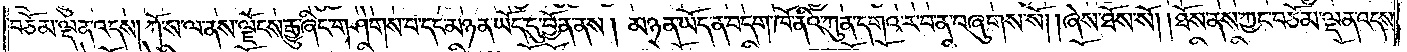བཅོམ་ལྡན་འདས། ཀོ་ས་ལ་ནས་ལྗོངས་རྒྱུ་ཞིང་གཤེགས་པ་དང་མཉན་ཡོད་དུ་བྱོན་ནས། མཉན་ཡོད་ན་བདག་ཁོ་ནའི་ཀུན་དགའ་ར་བ་ན་བཞུགས་སོ། །ཞེས་ཐོས་སོ། །ཐོས་ནས་ཀྱང་བཅོམ་ལྡན་འདས་
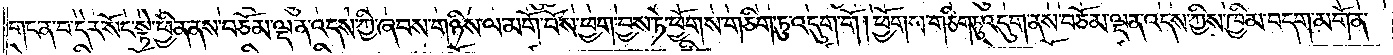གང་ན་བ་དེར་སོང་སྟེ་ཕྱིན་ནས་བཅོམ་ལྡན་འདས་ཀྱི་ཞབས་གཉིས་ལ་མགོ་བོས་ཕྱག་བྱས་ཏེ་ཕྱོགས་གཅིག་ཏུ་འདུག་གོ །ཕྱོགས་གཅིག་ཏུ་འདུག་ནས་བཅོམ་ལྡན་འདས་ཀྱིས་ཁྱིམ་བདག་མགོན་
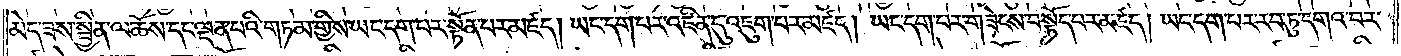མེད་ཟས་སྦྱིན་ལ་ཆོས་དང་ལྡན་པའི་གཏམ་གྱིས་ཡང་དག་པར་སྟོན་པར་མཛད། ཡང་དག་པར་འཛིན་དུ་འཇུག་པར་མཛད། ཡང་དག་པར་གཟེངས་བསྟོད་པར་མཛད། ཡང་དག་པར་རབ་ཏུ་དགའ་བར་
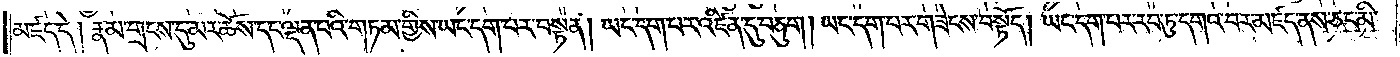མཛད་དེ། རྣམ་གྲངས་དུ་མར་ཆོས་དང་ལྡན་པའི་གཏམ་གྱིས་ཡང་དག་པར་བསྟན། ཡང་དག་པར་འཛིན་དུ་བཅུག །ཡང་དག་པར་གཟེངས་བསྟོད། ཡང་དག་པར་རབ་ཏུ་དགའ་བར་མཛད་ནས་ཅང་མི་
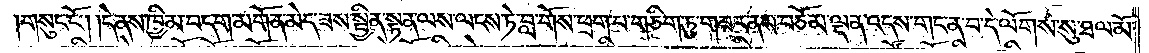གསུང་ངོ༌། །དེ་ནས་ཁྱིམ་བདག་མགོན་མེད་ཟས་སྦྱིན་སྟན་ལས་ལངས་ཏེ་བླ་གོས་ཕྲག་པ་གཅིག་ཏུ་གཟར་ནས་བཅོམ་ལྡན་འདས་གང་ན་བ་དེ་ལོགས་སུ་ཐལ་མོ་
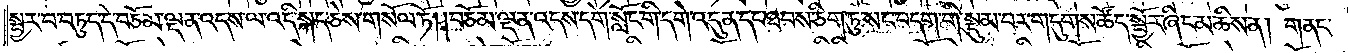སྦྱར་བ་བཏུད་དེ་བཅོམ་ལྡན་འདས་ལ་འདི་སྐད་ཅེས་གསོལ་ཏོ། །བཅོམ་ལྡན་འདས་དགེ་སློང་གི་དགེ་འདུན་དང་ཐབས་ཅིག་ཏུ་སང་བདག་གི་སྡུམ་པར་གདུགས་ཚོད་སྦྱོར་ཞིང་མཆིས་ན། གནང་
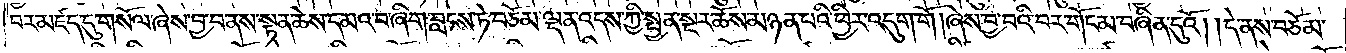བར་མཛད་དུ་གསོལ་ཞེས་བྱ་བ་ནས་སྟན་ཆེས་དམའ་བ་ཞིག་བླངས་ཏེ་བཅོམ་ལྡན་འདས་ཀྱི་སྤྱན་སྔར་ཆོས་མཉན་པའི་ཕྱིར་འདུག་གོ །ཞེས་བྱ་བའི་བར་གོང་མ་བཞིན་དུའོ། །དེ་ནས་བཅོམ་
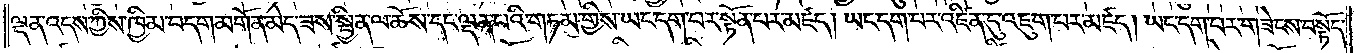ལྡན་འདས་ཀྱིས་ཁྱིམ་བདག་མགོན་མེད་ཟས་སྦྱིན་ལ་ཆོས་དང་ལྡན་པའི་གཏམ་གྱིས་ཡང་དག་པར་སྟོན་པར་མཛད། ཡང་དག་པར་འཛིན་དུ་འཇུག་པར་མཛད། ཡང་དག་པར་གཟེངས་བསྟོད་
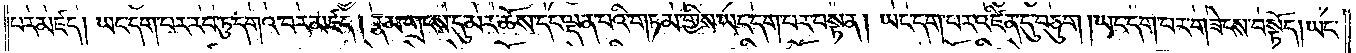པར་མཛད། ཡང་དག་པར་རབ་ཏུ་དགའ་བར་མཛད། རྣམ་གྲངས་དུ་མར་ཆོས་དང་ལྡན་པའི་གཏམ་གྱིས་ཡང་དག་པར་བསྟན། ཡང་དག་པར་འཛིན་དུ་བཅུག །ཡང་དག་པར་གཟེངས་བསྟོད། ཡང་
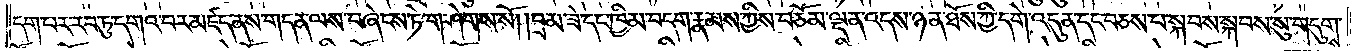དག་པར་རབ་ཏུ་དགའ་བར་མཛད་ནས་གདན་ལས་བཞེངས་ཏེ་གཤེགས་སོ། །བྲམ་ཟེ་དང་ཁྱིམ་བདག་རྣམས་ཀྱིས་བཅོམ་ལྡན་འདས་ཉན་ཐོས་ཀྱི་དགེ་འདུན་དང་བཅས་པ་སྐབས་སྐབས་སུ་གདུགས་
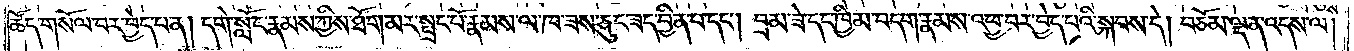ཚོད་གསོལ་བར་བྱེད་པ་ན། དགེ་སློང་རྣམས་ཀྱིས་ཐོག་མར་སྤྲང་པོ་རྣམས་ལ་ཁ་ཟས་ཅུང་ཟད་བྱིན་པ་དང༌། བྲམ་ཟེ་དང་ཁྱིམ་བདག་རྣམས་འཕྱར་བར་བྱེད་པའི་སྐབས་དེ། བཅོམ་ལྡན་འདས་ལ།
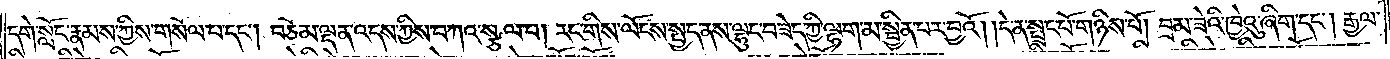དགེ་སློང་རྣམས་ཀྱིས་གསོལ་པ་དང༌། བཅོམ་ལྡན་འདས་ཀྱིས་བཀའ་སྩལ་པ། རང་གིས་ལོངས་སྤྱད་ནས་ལྷུང་བཟེད་ཀྱི་ལྷག་མ་སྦྱིན་པར་བྱའོ། །དེ་ན་སྤྲང་པོ་གཉིས་པོ། བྲམ་ཟེའི་ཁྱེའུ་ཞིག་དང༌། རྒྱལ་
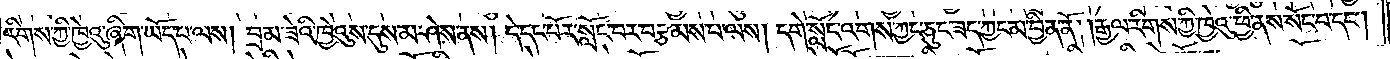རིགས་ཀྱི་ཁྱེའུ་ཞིག་ཡོད་པ་ལས། བྲམ་ཟེའི་ཁྱེའུས་དུས་མ་ཤེས་ནས། དེ་དང་པོར་སློང་བར་བརྩམས་པ་ལས། དགེ་སློང་འགས་ཀྱང་ཅུང་ཟད་ཀྱང་མ་བྱིན་ནོ། །རྒྱལ་རིགས་ཀྱི་ཁྱེའུ་ཕྱི་ནས་སོང་བ་དང༌།
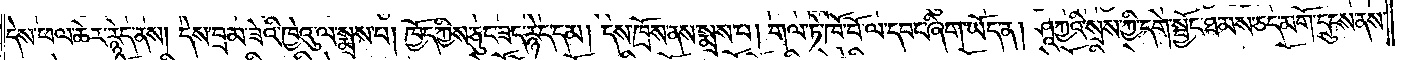དེས་ཕལ་ཆེར་རྙེད་ནས། དེས་བྲམ་ཟེའི་ཁྱེའུ་ལ་སྨྲས་པ། ཁྱོད་ཀྱིས་ཅུང་ཟད་རྙེད་དམ། དེས་ཁྲོས་ནས་སྨྲས་པ། གལ་ཏེ་ཁོ་བོ་ལ་དབང་ཞིག་ཡོད་ན། ཤཱཀྱའི་སྲས་ཀྱི་དགེ་སྦྱོང་ཐམས་ཅད་མགོ་དྲུངས་ནས་
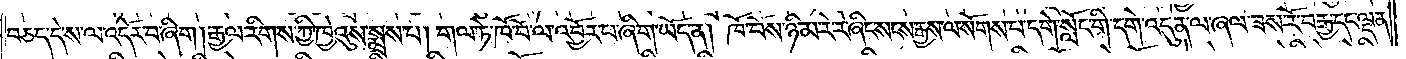བཅད་དེ་ས་ལ་འདོར་བ་ཞིག །རྒྱལ་རིགས་ཀྱི་ཁྱེའུས་སྨྲས་པ། གལ་ཏེ་ཁོ་བོ་ལ་འབྱོར་བ་ཞིག་ཡོད་ན། ཁོ་བོས་ཉི་མ་རེ་རེ་ཞིང་སངས་རྒྱས་ལ་སོགས་པ་དགེ་སློང་གི་དགེ་འདུན་ལ་ཞལ་ཟས་རོ་བརྒྱ་དང་ལྡན་
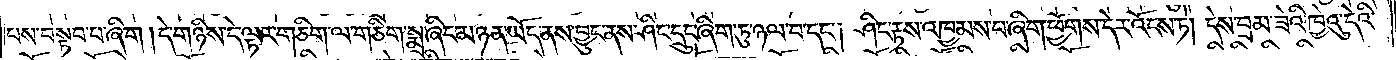པས་བསྟབ་པ་ཞིག །དེ་གཉིས་དེ་ལྟར་གཅིག་ལ་གཅིག་སྨྲ་ཞིང་མཉན་ཡོད་ནས་བྱུང་ནས་ཤིང་དྲུང་ཞིག་ཏུ་ཉལ་བ་དང༌། ཤིང་རྟས་འཁྱམས་པ་ཞིག་ཕྱོགས་དེར་འོངས་ཏེ། དེས་བྲམ་ཟེའི་ཁྱེའུ་དེའི་
